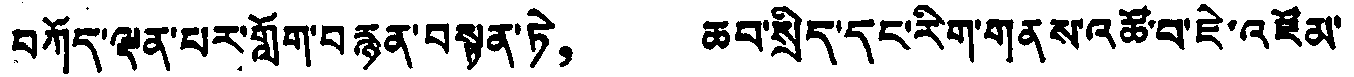བཀོད་ལྡན་པར་གློག་བརྙན་བསྟན་ཏེ， ཆབ་སྲིད་དང་རིག་གནས་འཚོ་བ་ཇེ་འཛོམ་
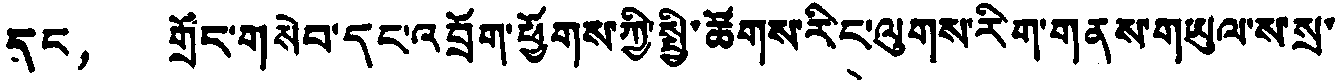དང， གྲོང་གསེབ་དང་འབྲོག་ཕྱོགས་ཀྱི་སྤྱི་ཚོགས་རིང་ལུགས་རིག་གནས་གཡུལ་ས་སྲ་
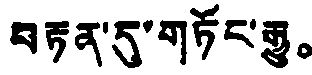བརྟན་དུ་གཏོང་རྒྱུ。
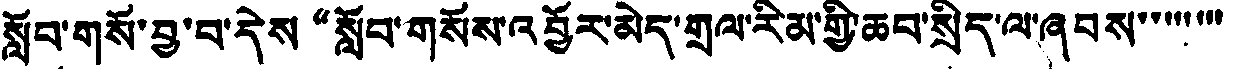སློབ་གསོ་བྱ་བ་དེས“སློབ་གསོས་འབྱོར་མེད་གྲལ་རིམ་གྱི་ཆབ་སྲིད་ལ་ཞབས་་་་་་་་
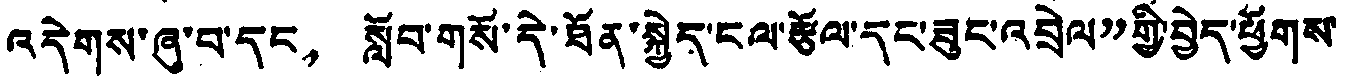འདེགས་ཞུ་བ་དང， སློབ་གསོ་དེ་ཐོན་སྐྱེད་ངལ་རྩོལ་དང་ཟུང་འབྲེལ”གྱི་བྱེད་ཕྱོགས་
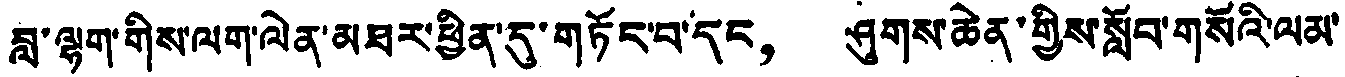བླ་ལྷག་གིས་ལག་ལེན་མཐར་ཕྱིན་དུ་གཏོང་བ་དང， ཤུགས་ཆེན་གྱིས་སློབ་གསོའི་ལམ་
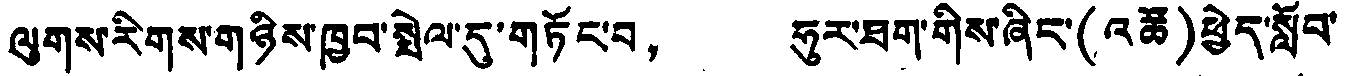ལུགས་རིགས་གཉིས་ཁྱབ་སྤེལ་དུ་གཏོང་བ， ཧུར་ཐག་གིས་ཞིང་(འཚོ)ཕྱེད་སློབ་
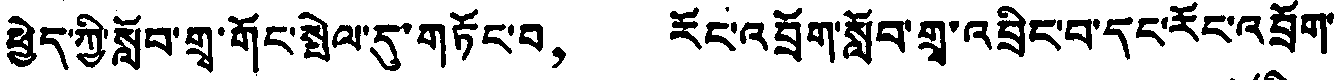ཕྱེད་ཀྱི་སློབ་གྲྭ་གོང་སྤེལ་དུ་གཏོང་བ， རོང་འབྲོག་སློབ་གྲྭ་འབྲིང་བ་དང་རོང་འབྲོག་
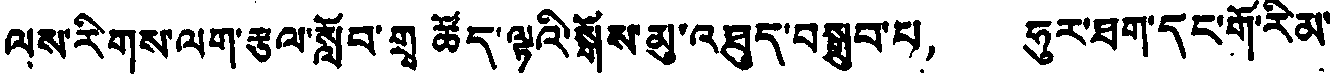ལས་རིགས་ལག་རྩལ་སློབ་གྲྭ ཚོད་ལྟའི་སྒོས་མུ་འཐུད་བསྒྲུབ་པ， ཧུར་ཐག་དང་གོ་རིམ་
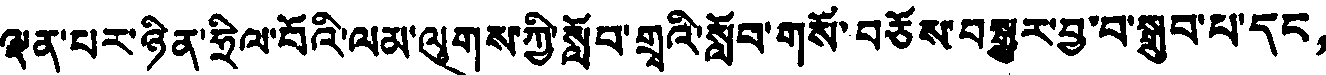ལྡན་པར་ཉིན་ཧྲིལ་བོའི་ལམ་ལུགས་ཀྱི་སློབ་གྲྭའི་སློབ་གསོ་བཅོས་བསྒྱུར་བྱ་བ་སྒྲུབ་པ་དང，
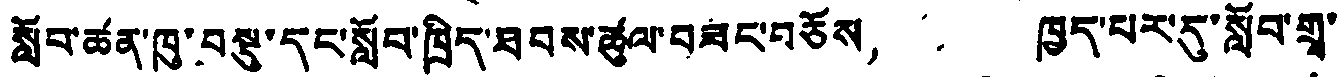སློབ་ཚན་ཁུ་བསྡུ་དང་སློབ་ཁྲིད་ཐབས་ཚུལ་བཟང་བཅོས， ཁྱད་པར་དུ་སློབ་གྲྭ་
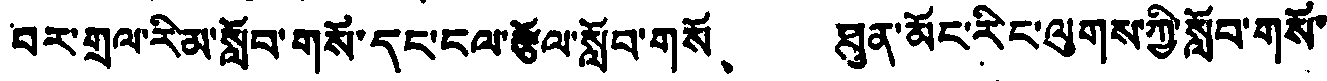བར་གྲལ་རིམ་སློབ་གསོ་དང་ངལ་རྩོལ་སློབ་གསོ、 ཐུན་མོང་རིང་ལུགས་ཀྱི་སློབ་གསོ་
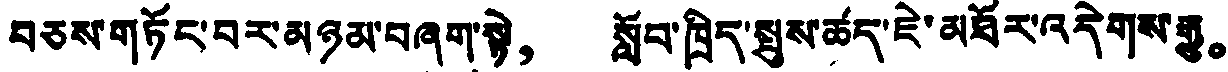བཅས་གཏོང་བར་མཉམ་བཞག་སྟེ， སློབ་ཁྲིད་སྤུས་ཚད་ཇེ་མཐོར་འདེགས་རྒྱུ。
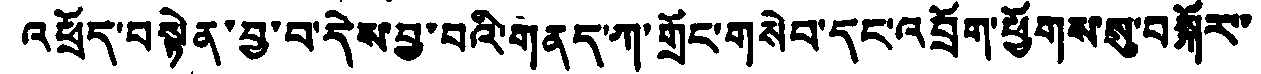འཕྲོད་བསྟེན་བྱ་བ་དེས་བྱ་བའི་གནད་ཀ་གྲོང་གསེབ་དང་འབྲོག་ཕྱོགས་སུ་བསྐོར་་
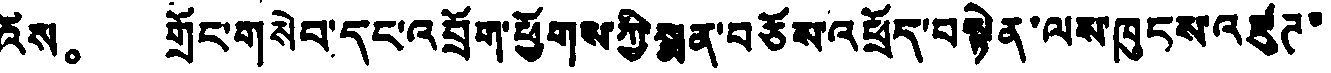འོས。 གྲོང་གསེབ་དང་འབྲོག་ཕྱོགས་ཀྱི་སྨན་བཅོས་འཕྲོད་བསྟེན་ལས་ཁུངས་འཛུཊ་
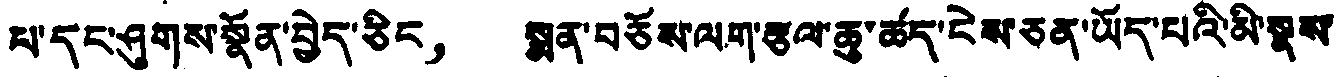པ་དང་ཤུགས་སྣོན་བྱེད་ཅིང， སྨན་བཅོས་ལག་རྩལ་ཆུ་ཚད་ངེས་ཅན་ཡོད་པའི་མི་སྣས་
